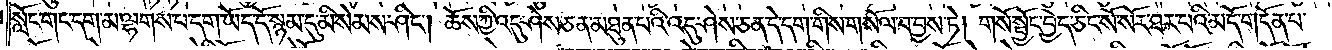སློང་གང་དག་མ་ལྷགས་པ་དག་ཡོད་དོ་སྙམ་དུ་མི་སེམས་ཤིང༌། ཆོས་ཀྱི་འདུ་ཤེས་ཅན་མཐུན་པའི་འདུ་ཤེས་ཅན་དེ་དག་གིས་གསོལ་བ་བྱས་ཏེ། གསོ་སྦྱོང་བྱེད་ཅིང་སོ་སོར་ཐར་པའི་མདོ་གདོན་པ་
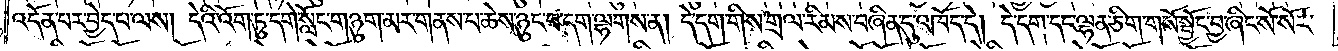འདོན་པར་བྱེད་པ་ལས། དེའི་འོག་ཏུ་དགེ་སློང་གཉུག་མར་གནས་པ་ཆེས་ཉུང་བ་དག་ལྷགས་ན། དེ་དག་གིས་གྲལ་རིམས་བཞིན་དུ་འཁོད་དེ། དེ་དག་དང་ལྷན་ཅིག་གསོ་སྦྱོང་བྱ་ཞིང་སོ་སོར་
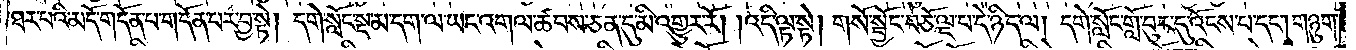ཐར་པའི་མདོ་གདོན་པ་གདོན་པར་བྱ་སྟེ། དགེ་སློང་སྔ་མ་དག་ལ་ཡང་འགལ་ཚབས་ཅན་དུ་མི་འགྱུར་རོ། །འདི་ལྟ་སྟེ། གསོ་སྦྱོང་བཅོ་ལྔ་པ་དེ་ཉིད་ལ། དགེ་སློང་གློ་བུར་དུ་འོངས་པ་དང༌། གཉུག་
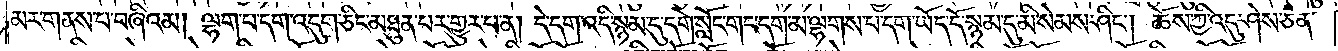མར་གནས་པ་བཞིའམ། ལྷག་པ་དག་འདུག་ཅིང་མཐུན་པར་གྱུར་པ་ན། དེ་དག་འདི་སྙམ་དུ་དགེ་སློང་གང་དག་མ་ལྷགས་པ་དག་ཡོད་དོ་སྙམ་དུ་མི་སེམས་ཤིང༌། ཆོས་ཀྱི་འདུ་ཤེས་ཅན་
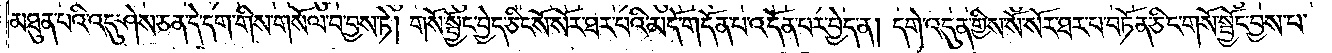མཐུན་པའི་འདུ་ཤེས་ཅན་དེ་དག་གིས་གསོལ་བ་བྱས་ཏེ། གསོ་སྦྱོང་བྱེད་ཅིང་སོ་སོར་ཐར་བའི་མདོ་གདོན་པ་འདོན་པར་བྱེད་ན། དགེ་འདུན་གྱིས་སོ་སོར་ཐར་པ་བཏོན་ཅིང་གསོ་སྦྱོང་བྱས་པ་
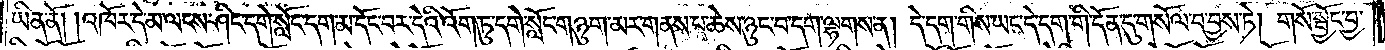ཡིན་ནོ། །འཁོར་དེ་མ་ལངས་ཤིང་དགེ་སློང་དག་མ་དོང་བར་དེའི་འོག་ཏུ་དགེ་སློང་གཉུག་མར་གནས་པ་ཆེས་ཉུང་བ་དག་ལྷགས་ན། དེ་དག་གིས་ཡང་དེ་དག་གི་དོན་དུ་གསོལ་བ་བྱས་ཏེ། གསོ་སྦྱོང་བྱ་
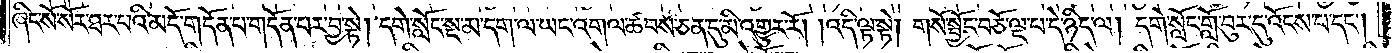ཞིང་སོ་སོར་ཐར་པའི་མདོ་གདོན་པ་གདོན་པར་བྱ་སྟེ། དགེ་སློང་སྔ་མ་དག་ལ་ཡང་འགལ་ཚབས་ཅན་དུ་མི་འགྱུར་རོ། །འདི་ལྟ་སྟེ། གསོ་སྦྱོང་བཅོ་ལྔ་པ་དེ་ཉིད་ལ། དགེ་སློང་གློ་བུར་དུ་འོངས་པ་དང༌།
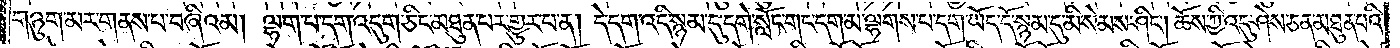གཉུག་མར་གནས་པ་བཞིའམ། ལྷག་པ་དག་འདུག་ཅིང་མཐུན་པར་གྱུར་པ་ན། དེ་དག་འདི་སྙམ་དུ་དགེ་སློང་གང་དག་མ་ལྷགས་པ་དག་ཡོད་དོ་སྙམ་དུ་མི་སེམས་ཤིང༌། ཆོས་ཀྱི་འདུ་ཤེས་ཅན་མཐུན་པའི་
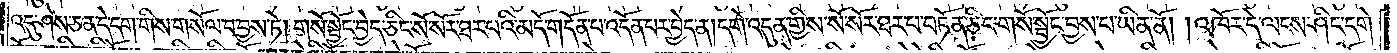འདུ་ཤེས་ཅན་དེ་དག་གིས་གསོལ་བ་བྱས་ཏེ། གསོ་སྦྱོང་བྱེད་ཅིང་སོ་སོར་ཐར་པའི་མདོ་གདོན་པ་འདོན་པར་བྱེད་ན། དགེ་འདུན་གྱིས་སོ་སོར་ཐར་པ་བཏོན་ཅིང་གསོ་སྦྱོང་བྱས་པ་ཡིན་ནོ། །འཁོར་དེ་ལངས་ཤིང་དགེ་
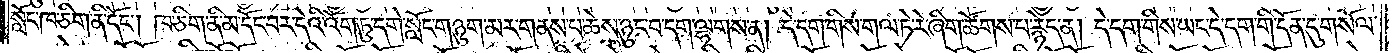སློང་ཁ་ཅིག་ནི་དོང༌། ཁ་ཅིག་ནི་མ་དོང་བར་དེའི་འོག་ཏུ་དགེ་སློང་གཉུག་མར་གནས་པ་ཆེས་ཉུང་བ་དག་ལྷགས་ན། དེ་དག་གིས་གལ་ཏེ་རེ་ཞིག་ཚོགས་པ་རྙེད་ན། དེ་དག་གིས་ཡང་དེ་དག་གི་དོན་དུ་གསོལ་
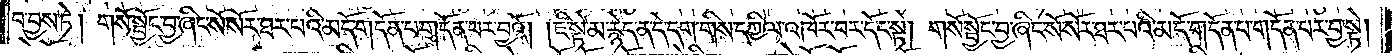བ་བྱས་ཏེ། གསོ་སྦྱོང་བྱ་ཞིང་སོ་སོར་ཐར་པའི་མདོ་གདོན་པ་གདོན་པར་བྱའོ། །ཇི་སྟེ་མ་རྙེད་ན་དེ་དག་གིས་དཀྱིལ་འཁོར་བར་དོང་སྟེ། གསོ་སྦྱོང་བྱ་ཞིང་སོ་སོར་ཐར་པའི་མདོ་གདོན་པ་གདོན་པར་བྱ་སྟེ།
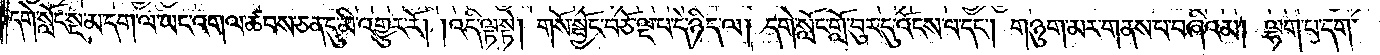དགེ་སློང་སྔ་མ་དག་ལ་ཡང་འགལ་ཚབས་ཅན་དུ་མི་འགྱུར་རོ། །འདི་ལྟ་སྟེ། གསོ་སྦྱོང་བཅོ་ལྔ་པ་དེ་ཉིད་ལ། དགེ་སློང་གློ་བུར་དུ་འོངས་པ་དང༌། གཉུག་མར་གནས་པ་བཞིའམ། ལྷག་པ་དག་
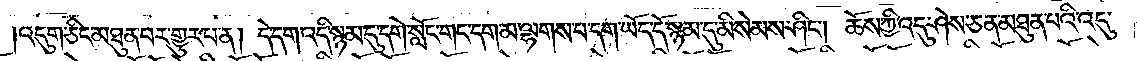།འདུག་ཅིང་མཐུན་པར་གྱུར་པ་ན། དེ་དག་འདི་སྙམ་དུ་དགེ་སློང་གང་དག་མ་ལྷགས་པ་དག་ཡོད་དོ་སྙམ་དུ་མི་སེམས་ཤིང༌། ཆོས་ཀྱི་འདུ་ཤེས་ཅན་མཐུན་པའི་འདུ་
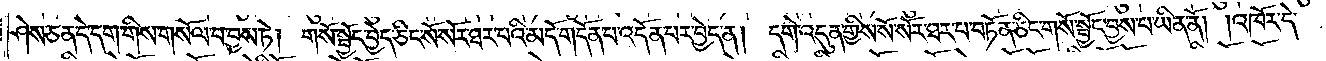ཤེས་ཅན་དེ་དག་གིས་གསོལ་བ་བྱས་ཏེ། གསོ་སྦྱོང་བྱེད་ཅིང་སོ་སོར་ཐར་པའི་མདོ་གདོན་པ་འདོན་པར་བྱེད་ན། དགེ་འདུན་གྱིས་སོ་སོར་ཐར་པ་བཏོན་ཅིང་གསོ་སྦྱོང་བྱས་པ་ཡིན་ནོ། །འཁོར་དེ་
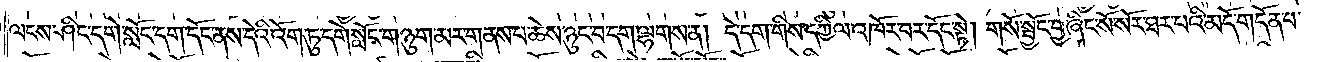ལངས་ཤིང་དགེ་སློང་དག་དོང་ནས་དེའི་འོག་ཏུ་དགེ་སློང་གཉུག་མར་གནས་པ་ཆེས་ཉུང་བ་དག་ལྷགས་ན། དེ་དག་གིས་དཀྱིལ་འཁོར་བར་དོང་སྟེ། གསོ་སྦྱོང་བྱ་ཞིང་སོ་སོར་ཐར་པའི་མདོ་གདོན་པ་
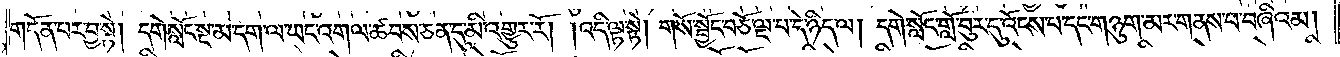གདོན་པར་བྱ་སྟེ། དགེ་སློང་སྔ་མ་དག་ལ་ཡང་འགལ་ཚབས་ཅན་དུ་མི་འགྱུར་རོ། །འདི་ལྟ་སྟེ། གསོ་སྦྱོང་བཅོ་ལྔ་པ་དེ་ཉིད་ལ། དགེ་སློང་གློ་བུར་དུ་འོངས་པ་དང་གཉུག་མར་གནས་པ་བཞིའམ།
